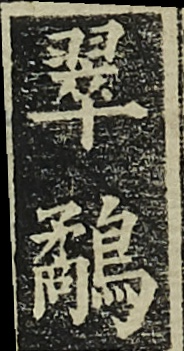翠鷸
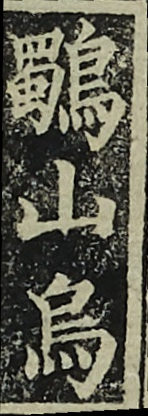鸀山鳥
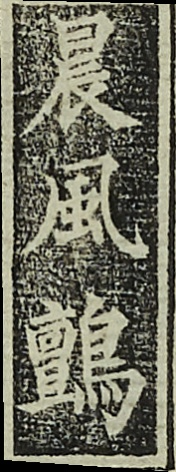晨風鸇
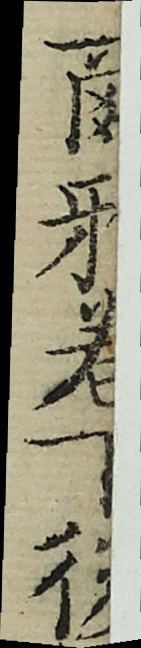爾雅卷下後
